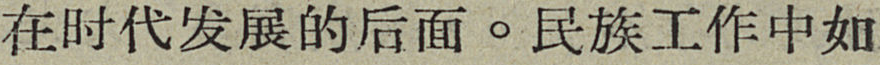在时代发展的后面。民族工作中如
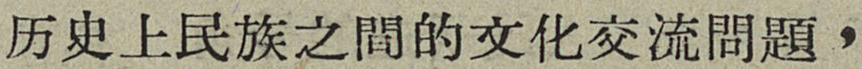历史上民族之間的文化交流問題，
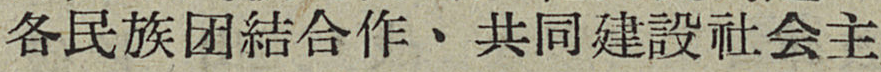各民族团結合作、共同建設社会主
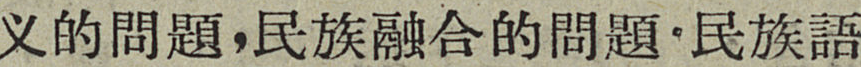义的問題，民族融合的問題。民族語
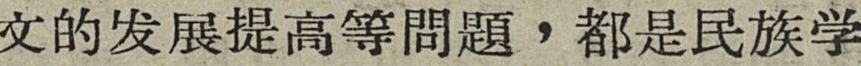文的发展提高等問題，都是民族学
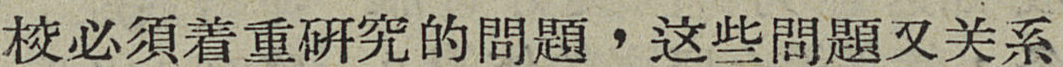校必須着重研究的問題，这些問題又关系
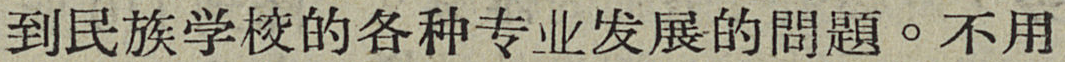到民族学校的各种专业发展的問題。不用
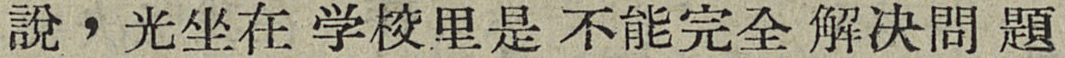說，光坐在学校里是不能完全解决問題
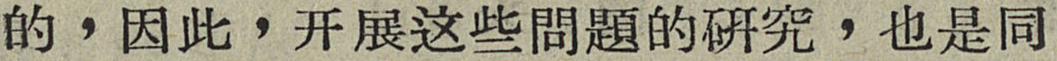的，因此，开展这些問題的研究，也是同
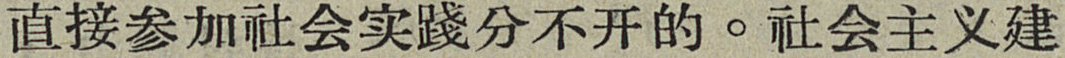直接参加社会实踐分不开的。社会主义建
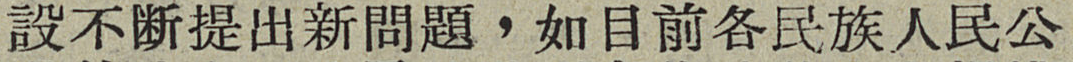設不断提出新問題，如目前各民族人民公
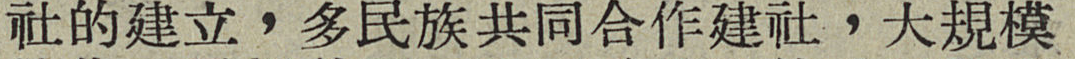社的建立，多民族共同合作建社，大規模
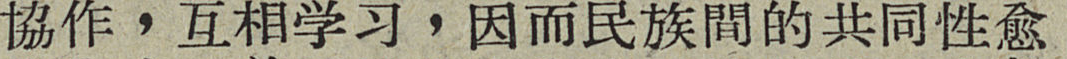協作，互相学习，因而民族間的共同性愈
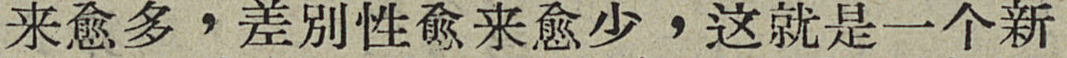来愈多，差别行愈来愈少，这就是一个新
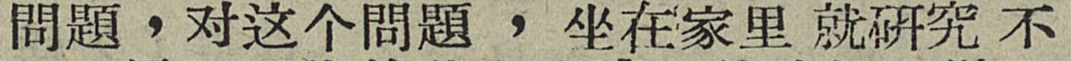問題，对这个問題，坐在家里就研究不
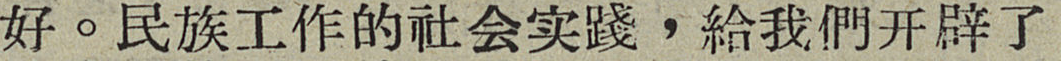好。民族工作的社会实踐，給我們开辟了
